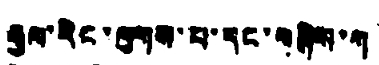རྒྱལ་རིང་ལུགས་པ་དང་གཞིས་ཀ
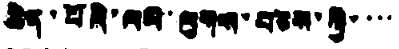ཆེན་པོའི་ལམ་ལུགས་བཅས་ཀྱི་་་་
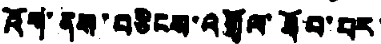འོག་ནས་བཅིངས་འགྲོལ་ཐོབ་པར་
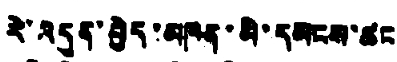རེ་འདུན་བྱེད་མཁན་མི་དམངས་ཚང
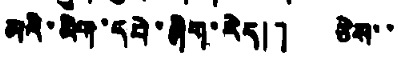མའི་མིག་དཔེ་ཞིག་རེད།」 ཅེས་་
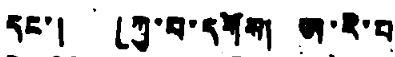དང་། 「ཀུ་པ་དགོག། ཨ་རི་པ
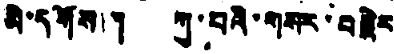མི་དགོས།」 ཀུ་པའི་གསར་བརྗེར
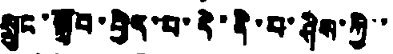སྲུང་སྐྱོབ་བྱེད་པ་དེ་ནི་པ་ཤིས་ཀྱི་་
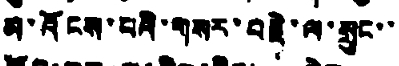མ་འོངས་པའི་གསར་བརྗེ་ལ་སྲུང་་
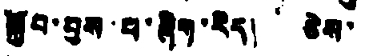སྐྱོབ་བྱས་པ་ཞིག་རེད། ཅེས་
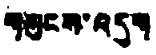གསུངས་འདུག
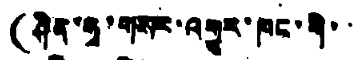(ཤིན་ཧྭ་གསར་འགྱུར་ཁང་གི་་
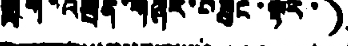གློག་འཕྲིན་གཞིར་བཟུང་ལྟར་)
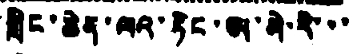གླིང་ཆེན་ལའ་ཏིང་ཨ་མེ་རི་་་
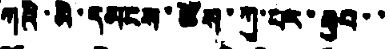ཀའི་མི་དམངས་ཚོས་ཀུ་པར་རྒྱབ་་
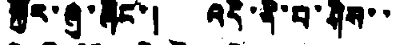སྐྱོར་ཞུ་ཞིང་། འདི་ནི་པ་ཤིས་་
